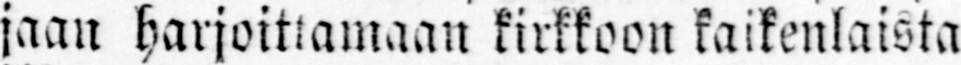jaan harjoittamaan kirkkoon kaikenlaista
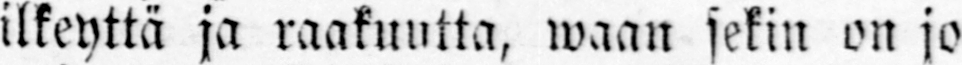ilkeyttä ja raakuutta, waan sekin on jo
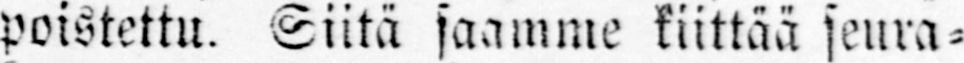poistettu. Siitä saamme kiittää seura-
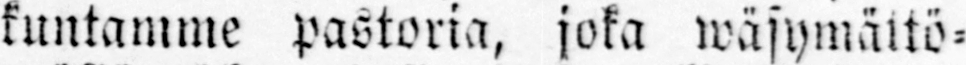kuntamme pastoria, joka wäsymättö-
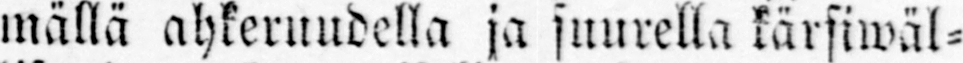mällä ahkeruudella ja suurella kärsiwäl-
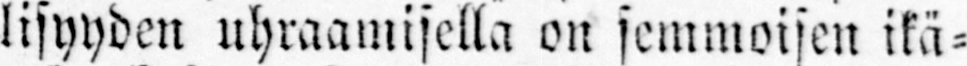lisyyden uhraamisella on semmoisen ikä-
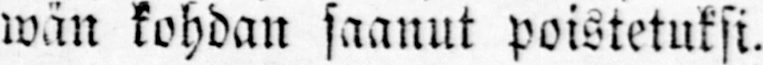wän kohdan saanut poistetuksi.
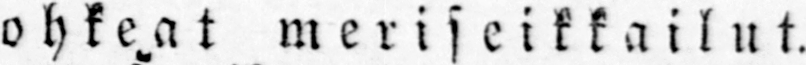Rohkeat meriseikkailut.
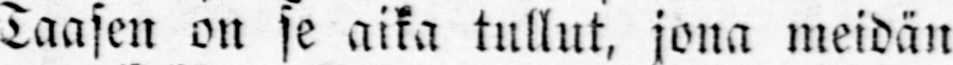Taasen on se aika tullut, jona meidän
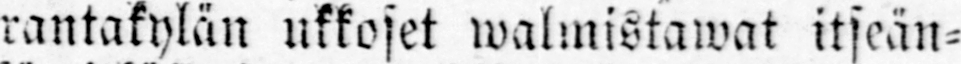rantakylän ukkoset walmistawat itseän-
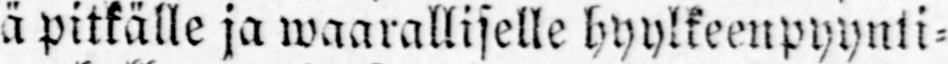sä pitkälle ja waaralliselle hyylkeenpyynti-
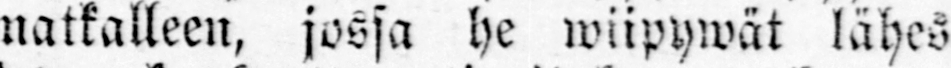matkalleen, jossa he wiipywät lähes
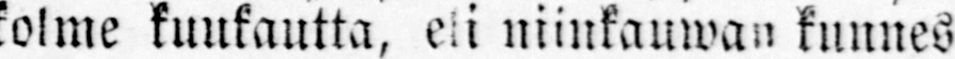kolme kuukautta, eli niinkauwan kunnes
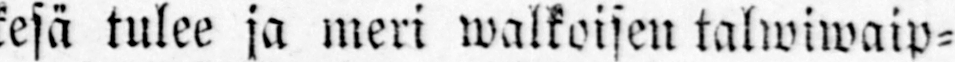kesä tulee ja meri walkoisen talwiwaip-
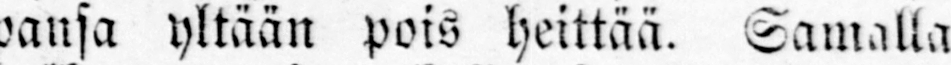pansa yltään pois heittää. Samalla
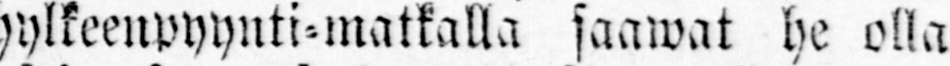hylkeenpyynti-matkalla saawat he olla
